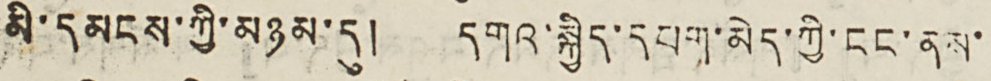མི་དམངས་ཀྱི་མཉམ་དུ། དགའ་སྐྱིད་དཔག་མེད་ཀྱི་ངང་ནས་
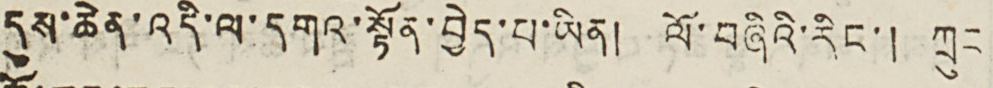དུས་ཆེན་འདི་ལ་དགའ་སྟོན་བྱེད་པ་ཡིན། ལོ་བཞིའི་རིང་། ཀྲུང
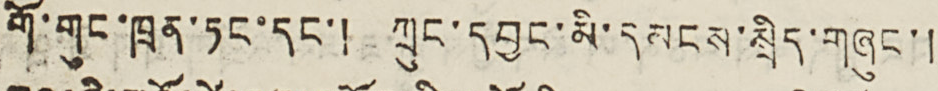གོ་གུང་ཁྲན་ཏང་དང་། ཀྲུང་དབྱང་མི་དམངས་སྲིད་གཞུང་།
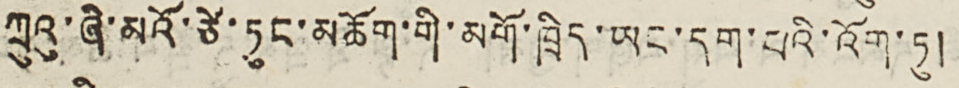ཀྲུའུ་ཞི་མའོ་ཙེ་ཏུང་མཆོག་གི་ཁྲིད་ཡང་དག་པའི་འོག་ཏུ།
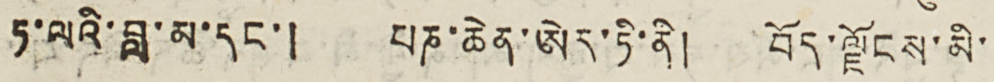ཏ་ལའི་བླ་མ་དང་། པཎ་ཆེན་ཨེར་ཏི་ནི། བོད་ལྗོངས་མི་
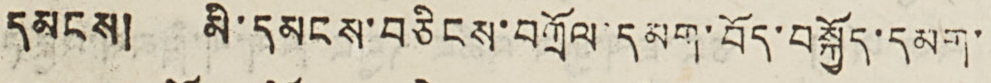དམངས། མི་དམངས་བཅིངས་བཀྲོལ་དམག་བོད་བསྐྱོད་དམག་
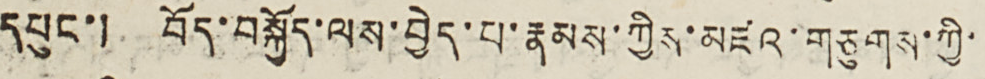དཔུང་། བོད་བསྐྱོད་ལས་བྱེད་པ་རྣམས་ཀྱིས་མཛའ་གཅུགས་ཀྱི་
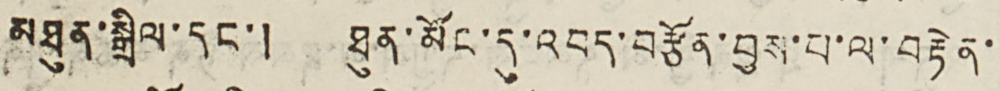མཐུན་སྒྲིལ་དང་། ཐུན་མོང་དུ་འབད་བརྩོན་བྱས་པ་ལ་བརྟེན་
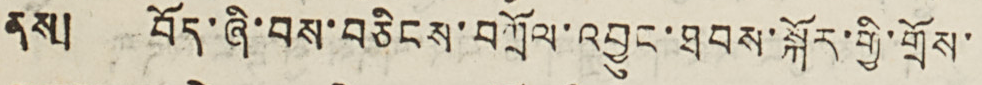ནས། བོད་ཞི་བས་བཅིངས་བཀྲོལ་འབྱུང་ཐབས་སྐོར་གྱི་གྲོས་
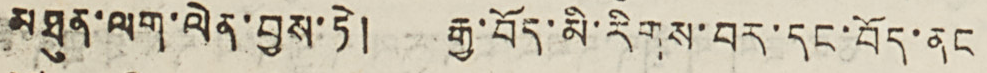མཐུན་ལག་ལེན་བྱས་ཏེ། རྒྱ་བོད་མི་རིགས་བར་དང་བོད་ནང
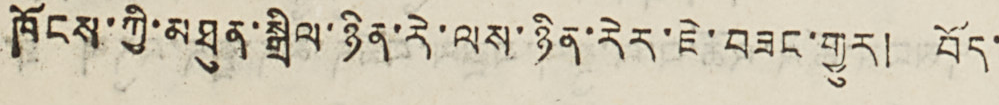ཁོངས་ཀྱི་མཐུན་སྒྲིལ་ཉིན་རེ་ལས་ཉིན་རེར་ཇེ་བཟང་གྱུར། བོད་
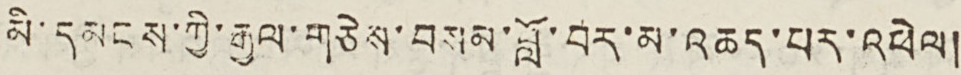མི་དམངས་ཀྱི་རྒྱལ་གཅེས་བསམ་བློ་བར་མ་འཆད་པར་འཕེལ།
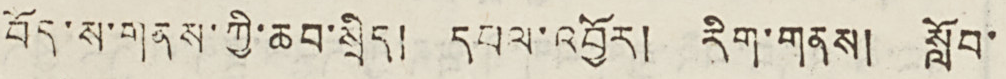བོད་ས་གནས་ཀྱི་ཆབ་སྲིད། དཔལ་འབྱོར། རིག་གནས། སློབ་
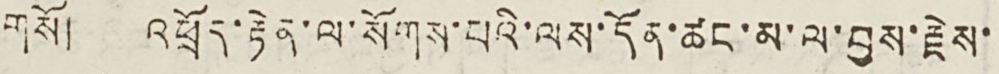གསོ། འཕྲོད་རྟེན་ལ་སོགས་པའི་ལས་དོན་ཚང་མ་ལ་བྱས་རྗེས་
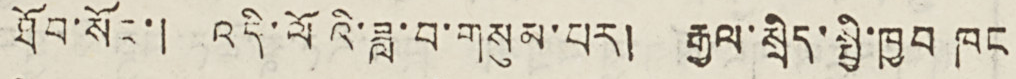ཐོབ་སོང་། འདི་ལོའི་ཟླ་བ་གསུམ་པར། རྒྱལ་སྲིད་སྤྱི་ཁྱབ ཁང
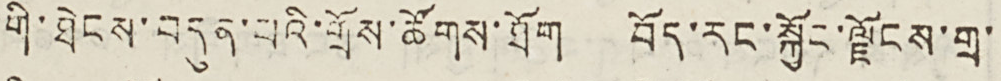གི་ཐེངས་བདུན་པའི་གྲོས་ཚོགས་ཐོག བོད་རང་སྐྱོང་ལྗོངས་གྲ་
